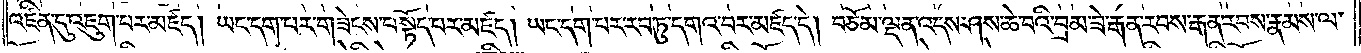འཛིན་དུ་འཇུག་པར་མཛད། ཡང་དག་པར་གཟེངས་བསྟོད་པར་མཛད། ཡང་དག་པར་རབ་ཏུ་དགའ་བར་མཛད་དེ། བཅོམ་ལྡན་འདས་ཤས་ཆེ་བའི་བྲམ་ཟེ་རྒན་རབས་རྒན་རབས་རྣམས་ལ་
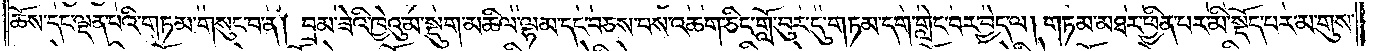ཆོས་དང་ལྡན་པའི་གཏམ་གསུང་བ་ན། བྲམ་ཟེའི་ཁྱེའུ་མ་སྡུག་མཆིལ་ལྷམ་དང་བཅས་པས་འཆག་ཅིང་གློ་བུར་དུ་གཏམ་དག་གླེང་བར་བྱེད་ལ། གཏམ་མཐར་ཕྱིན་པར་མི་སྡོད་པར་མ་གུས་
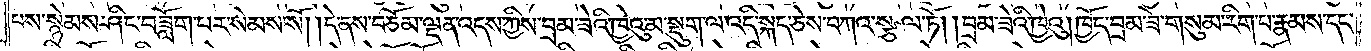པས་སྙེམས་ཤིང་བཟློག་པར་སེམས་སོ། །དེ་ནས་བཅོམ་ལྡན་འདས་ཀྱིས་བྲམ་ཟེའི་ཁྱེའུ་མ་སྡུག་ལ་འདི་སྐད་ཅེས་བཀའ་སྩལ་ཏོ། །བྲམ་ཟེའི་ཁྱེའུ། ཁྱོད་བྲམ་ཟེ་གསུམ་རིག་པ་རྣམས་དང་
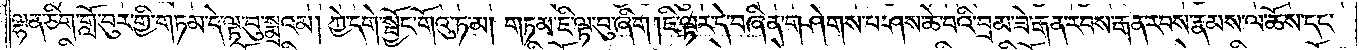ལྷན་ཅིག་གློ་བུར་གྱི་གཏམ་དེ་ལྟ་བུ་སྨྲའམ། ཀྱེ་དགེ་སྦྱོང་གོའུ་ཏ་མ། གཏམ་ཇི་ལྟ་བུ་ཞིག །ཇི་ལྟར་དེ་བཞིན་གཤེགས་པ་ཤས་ཆེ་བའི་བྲམ་ཟེ་རྒན་རབས་རྒན་རབས་རྣམས་ལ་ཆོས་དང་
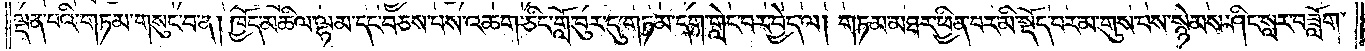ལྡན་པའི་གཏམ་གསུང་བ་ན། ཁྱོད་མཆིལ་ལྷམ་དང་བཅས་པས་འཆག་ཅིང་གློ་བུར་དུ་གཏམ་དག་གླེང་བར་བྱེད་ལ། གཏམ་མཐར་ཕྱིན་པར་མི་སྡོད་པར་མ་གུས་པས་སྙེམས་ཤིང་སླར་བཟློག་
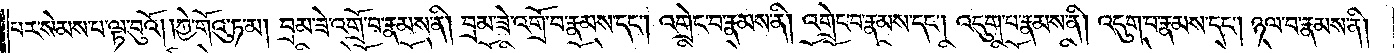པར་སེམས་པ་ལྟ་བུའོ། །ཀྱེ་གོའུ་ཏ་མ། བྲམ་ཟེ་འགྲོ་བ་རྣམས་ནི། བྲམ་ཟེ་འགྲོ་བ་རྣམས་དང༌། འགྲེང་བ་རྣམས་ནི། འགྲེང་བ་རྣམས་དང༌། འདུག་པ་རྣམས་ནི། འདུག་པ་རྣམས་དང༌། ཉལ་བ་རྣམས་ནི།
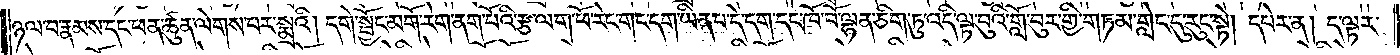ཉལ་བ་རྣམས་དང་ཕན་ཚུན་ལེགས་པར་སྨྲའི། དགེ་སྦྱོང་མགོ་རེག་ནག་པོའི་རྩ་ལག་ཕོ་རེང་གང་དག་ཡིན་པ་དེ་དག་དང་ཁོ་བོ་ལྷན་ཅིག་ཏུ་འདི་ལྟ་བུའི་གློ་བུར་གྱི་གཏམ་གླེང་དུ་རུང་སྟེ། དཔེར་ན། ད་ལྟར་
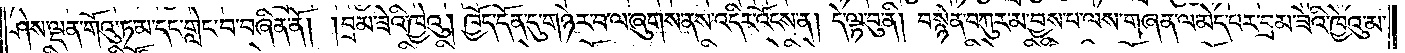ཤེས་ལྡན་གོའུ་ཏ་མ་དང་གླེང་བ་བཞིན་ནོ། །བྲམ་ཟེའི་ཁྱེའུ། ཁྱོད་དོན་དུ་གཉེར་བ་ལ་ཞུགས་ནས་འདིར་འོངས་ན། དེ་ལྟ་བུ་ནི། བསྙེན་བཀུར་མ་བྱས་པ་ལས་གཞན་ལ་མེད་པར་བྲམ་ཟེའི་ཁྱེའུ་མ་
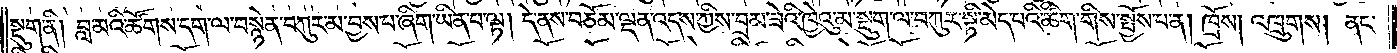སྡུག་ནི། བླ་མའི་ཚོགས་དག་ལ་བསྙེན་བཀུར་མ་བྱས་པ་ཞིག་ཡིན་པ་ལྟ། དེ་ནས་བཅོམ་ལྡན་འདས་ཀྱིས་བྲམ་ཟེའི་ཁྱེའུ་མ་སྡུག་ལ་བཀུར་སྟི་མེད་པའི་ཚིག་གིས་སྤྱོས་པ་ན། ཁྲོས། འཁྲུགས། ནང་
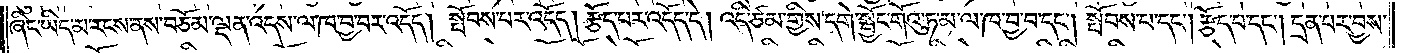ཞིང་ཡིད་མ་རངས་ནས་བཅོམ་ལྡན་འདས་ལ་ཁ་བྱ་བར་འདོད། སྤོབས་པར་འདོད། རྩོད་པར་འདོད་དེ། འདི་ཙམ་གྱིས་དགེ་སྦྱོང་གོའུ་ཏ་མ་ལ་ཁ་བྱ་བ་དང༌། སྤོབས་པ་དང༌། རྩོད་པ་དང༌། དྲན་པར་བྱས་
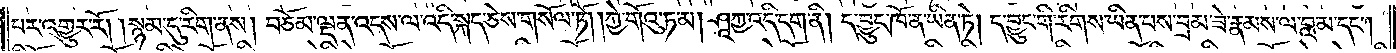པར་འགྱུར་རོ། །སྙམ་དུ་རིག་ནས། བཅོམ་ལྡན་འདས་ལ་འདི་སྐད་ཅེས་གསོལ་ཏོ། །ཀྱེ་གོའུ་ཏ་མ། ཤཱཀྱ་འདི་དག་ནི། ད་བྱུང་ཁོ་ན་ཡིན་ཏེ། ད་བྱུང་གི་རིགས་ཡིན་པས་བྲམ་ཟེ་རྣམས་ལ་བླ་མ་དང༌།
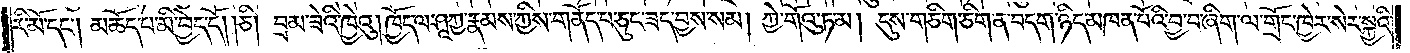རི་མོ་དང༌། མཆོད་པ་མི་བྱེད་དོ། །ཅི། བྲམ་ཟེའི་ཁྱེའུ། ཁྱོད་ལ་ཤཱཀྱ་རྣམས་ཀྱིས་གནོད་པ་ཅུང་ཟད་བྱས་སམ། ཀྱེ་གོའུ་ཏ་མ། དུས་གཅིག་ཅིག་ན་བདག་ཉིད་མཁན་པོའི་བྱ་བ་ཞིག་ལ་གྲོང་ཁྱེར་སེར་སྐྱའི་
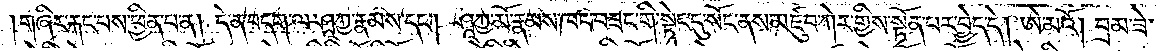གཞིར་རྐང་པས་ཕྱིན་པ་ན། དེ་ན་བདག་ལ་ཤཱཀྱ་རྣམ་དང༌། ཤཱཀྱ་མོ་རྣམས་ཁང་བཟང་གི་སྟེང་དུ་སོང་ནས་མཛུབ་ཀེར་གྱིས་སྟོན་པར་བྱེད་དེ། ཨེ་མའོ། །བྲམ་ཟེ་
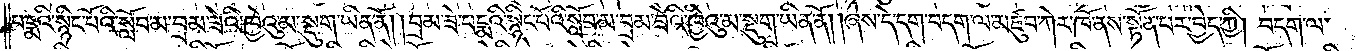པདྨའི་སྙིང་པོའི་སློབ་མ་བྲམ་ཟེའི་ཁྱེའུ་མ་སྡུག་ཡིན་ནོ། །བྲམ་ཟེ་པདྨའི་སྙིང་པོའི་སློབ་མ་བྲམ་ཟེའི་ཁྱེའུ་མ་སྡུག་ཡིན་ནོ། །ཞེས་དེ་དག་བདག་ལ་མཛུབ་ཀེར་ཁོ་ནས་སྟོན་པར་བྱེད་ཀྱི། བདག་ལ་
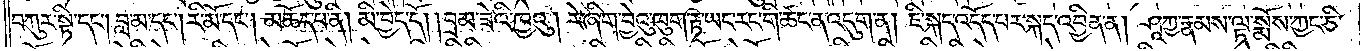བཀུར་སྟི་དང༌། བླ་མ་དང༌། རི་མོ་དང༌། མཆོད་པ་ནི། མི་བྱེད་དོ། །བྲམ་ཟེའི་ཁྱེའུ། རེ་ཞིག་བྱེའུ་ཁུག་རྟ་ཡང་རང་གི་ཚང་ན་འདུག་ན། ཇི་སྐད་འདོད་པར་སྐད་འབྱིན་ན། ཤཱཀྱ་རྣམས་ལྟ་སྨོས་ཀྱང་ཅི་
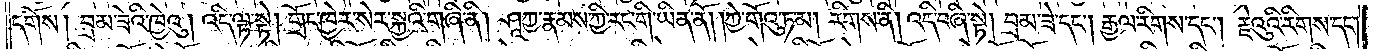དགོས། བྲམ་ཟེའི་ཁྱེའུ། འདི་ལྟ་སྟེ། གྲོང་ཁྱེར་སེར་སྐྱའི་གཞི་ནི། ཤཱཀྱ་རྣམས་ཀྱི་རང་གི་ཡིན་ནོ། །ཀྱེ་གོའུ་ཏ་མ། རིགས་ནི། འདི་བཞི་སྟེ། བྲམ་ཟེ་དང༌། རྒྱལ་རིགས་དང༌། རྗེའུའི་རིགས་དང༌།
